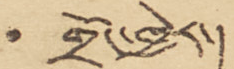གྲོང་ཁྱེར་།
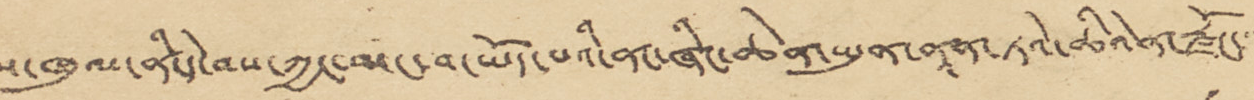ས་ཁུལ་ནི་དེ་བས་ཀྱང་མང་བ་ཡོད་པའི་ནང་ཞིང་ཆེན་ཡུན་ནཱན་ཏའེ་ཆིའེན་རྫོང་་་
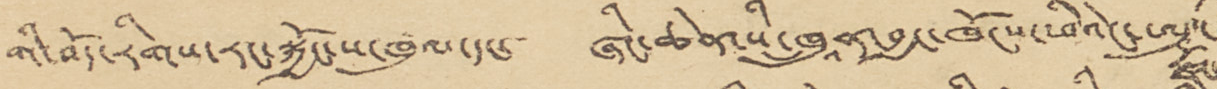གི་བོད་རིགས་རང་སྐྱོང་ས་ཁུལ་དང་ ཞིང་ཆེན་སི་ཁྲུནཱ་བྱང་ཁོངས་ཕིའེང་ཨུ་
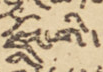རྫོང་གི་
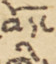བོད་
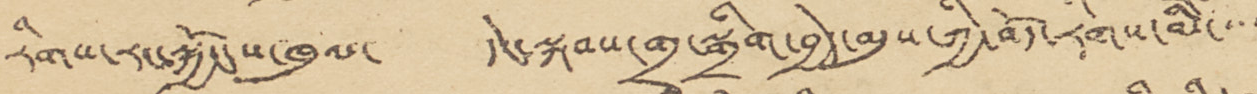རིགས་རང་སྐྱོང་ས་ཁུལ་ དེང་སྐབས་གྲྭ་སྒྲིག་བྱེད་མུས་ཀྱི་བོད་རིགས་མི་་་་
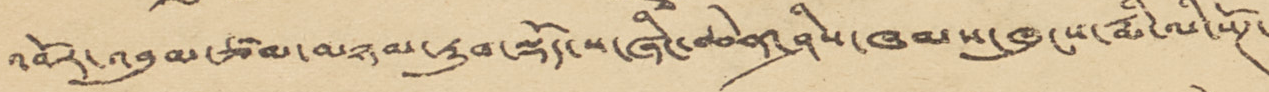འབོར་འབུམ་ཙམ་མཉམ་རུབ་སྡོད་ས་ཞིང་ཆེན་ཤིས་ཁམས་ཁུངས་རྨི་ལི་སོཊ་
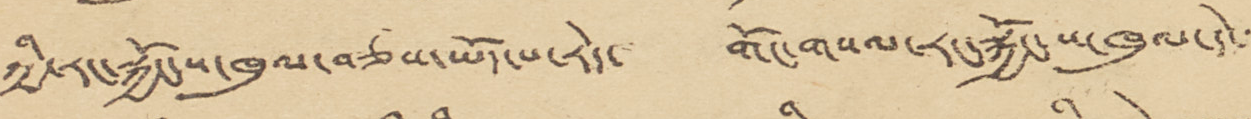ཀྱི་རང་སྐྱོང་ས་ཁུལ་བཅས་ཡོད་པ་རེད་ གོང་གསལ་རང་སྐྱོང་ས་ཁུལ་དེ་་་་
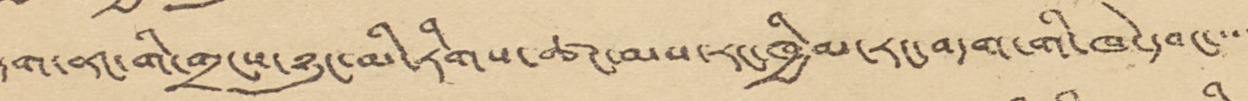དག་ནང་གི་གྲངས་ཉུང་མི་རིགས་ཚང་མས་རང་ཁྱིམ་རང་བདག་གི་ཁེ་དབང་་་་
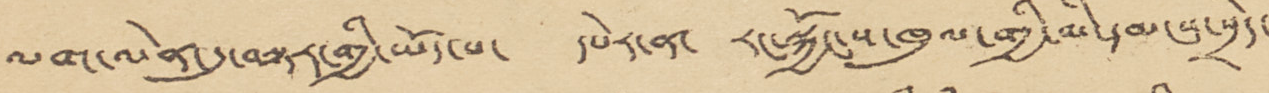ལག་ལེན་དུ་བསྟར་གྱི་ཡོད་པ་ དཔེར་ན་ རང་སྐྱོང་ས་ཁུལ་གྱི་དམངས་སྲིད་
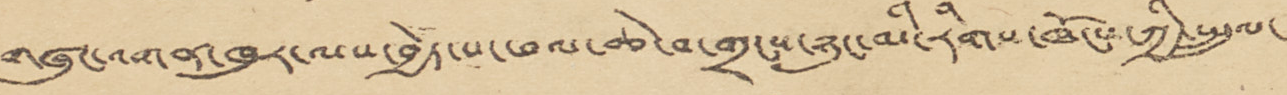གཞུང་འགན་ཁུར་ལས་བྱེད་པ་ཕལ་ཆེ་བ་གྲངས་ཉུང་མི་རིགས་ཁོངས་ཀྱི་སྤྲུལ་
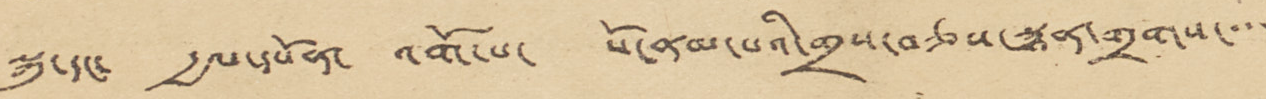སྐུ་དང་ རྒྱལ་དཔོན་ འགོ་པ་ སོ་ནམ་པའི་གྲས་བཅས་སྙན་གྲགས་་་་
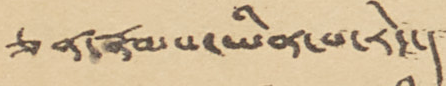ཅན་རྣམས་ཡིན་པ་རེད་།
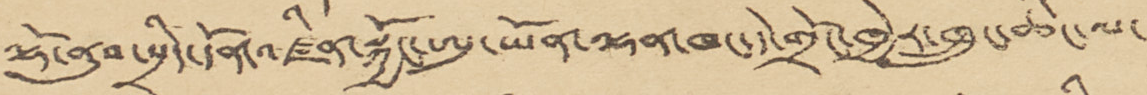ལྷོ་ནུབ་སྲིད་དོན་འཛིན་སྐྱོང་ཨུ་ཡོན་ལྷན་ཁང་དེ་གྲོང་ཁྱེར་ཁྲུང་ཆིང་ལ་
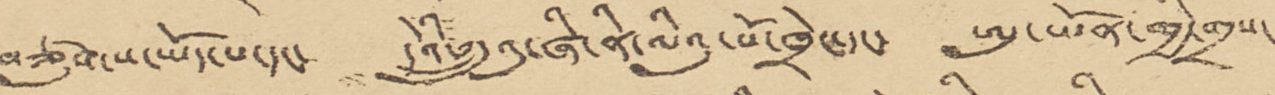བཙུགས་ཡོད་པ་དང་ དེའི་ཀྲུའུ་ཞི་ནི་ལིའུ་པོ་ཁྲེང་དང་ ཨུ་ཡོན་གྱི་གྲས་
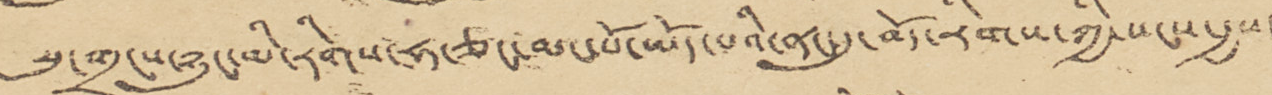སུ་གྲངས་ཉུང་མི་རིགས་ཧ་ཅང་མང་པོ་ཡོད་པའི་ནང་དུ་བོད་རིགས་ཀྱི་སངས་རྒྱས་
